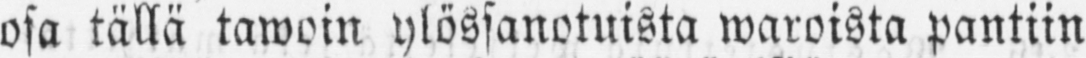osa tällä tawoin ylössanotuista waroista pantiin
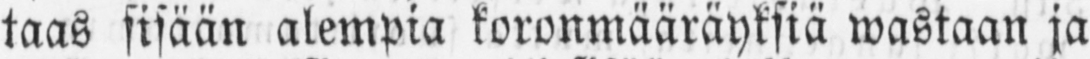taas sisään alempia koronmääräyksiä wastaan ja
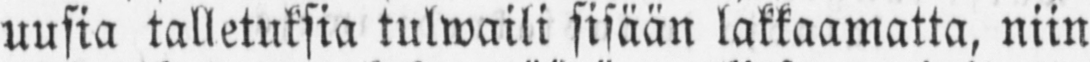uusia talletuksia tulwaili sisään lakkaamatta, niin
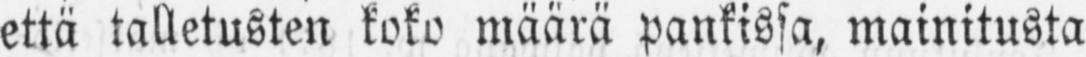että talletusten koko määrä pankissa, mainitusta
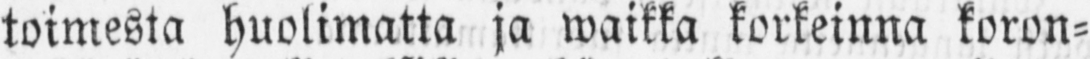toimesta huolimatta ja waikka korkeinna koron-
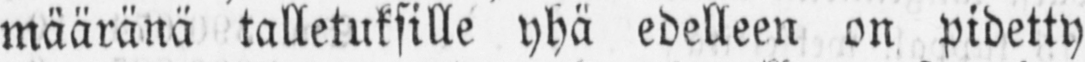määränä talletuksille yhä edelleen on pidetty
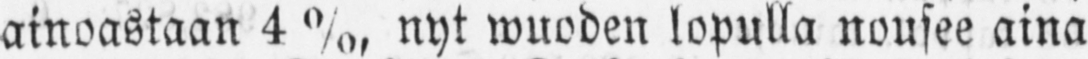ainoastaan 4 nyt wuoden lopulla nousee aina
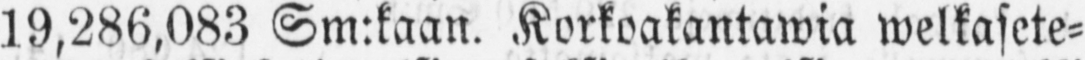19,286,083 Sm:kaan. Korkoakantawia welkasete-
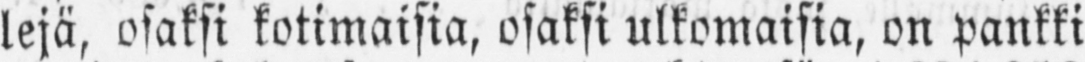lejä, osaksi kotimaisia, osaksi ulkomaisia, on pankki
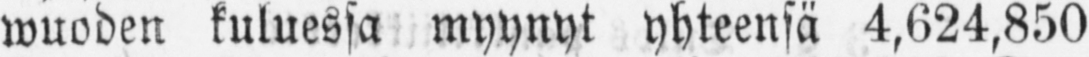wuoden kuluessa myynyt yhteensä 4,624,850
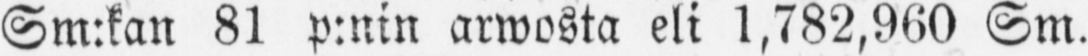Sm:kan 81 p:nin arwosta eli 1,782,960 Sm.
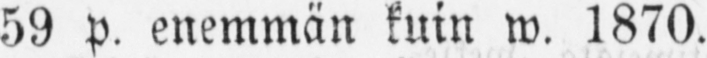59 p. enemmän kuin w. 1870.
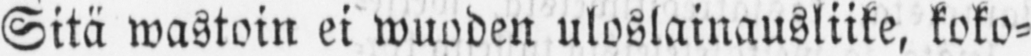Sitä wastoin ei wuoden uloslainausliike, koko-
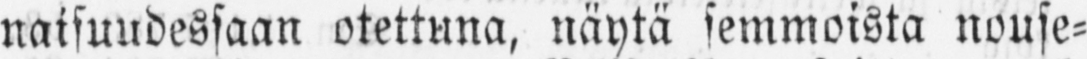naisuudessaan otettuna, näytä semmoista nouse-
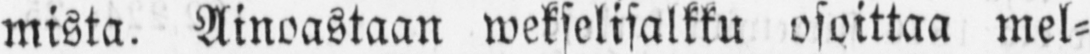mista. Ainoastaan wekselisalkku osoittaa mel-
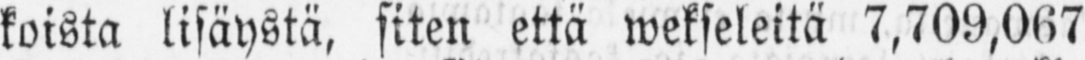koista lisäystä, siten että wekseleitä 7,709,067
